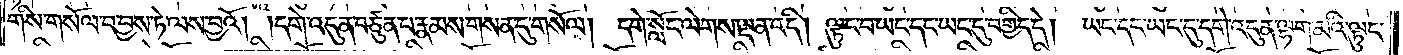གིས་གསོལ་བ་བྱས་ཏེ་ལས་བྱའོ། །དགེ་འདུན་བཙུན་པ་རྣམས་གསན་དུ་གསོལ། དགེ་སློང་ལེགས་ལྡན་འདི། ལྟུང་བ་ཡང་དང་ཡང་དུ་བགྱིད་དེ། ཡང་དང་ཡང་དུ་དགེ་འདུན་ལྷག་མའི་ལྟུང་
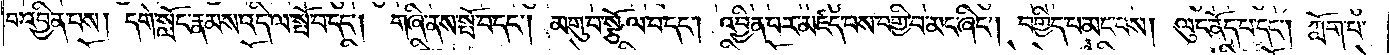པ་འབྱིན་པས། དགེ་སློང་རྣམས་འདི་ལ་སྤོ་བ་དང༌། གཞི་ནས་སྤོ་བ་དང༌། མགུ་བ་སྩོལ་བ་དང༌། འབྱིན་པར་མཛད་པས་བགྱི་བ་མང་ཞིང༌། བགྱིད་པ་མང་པས། ལུང་ནོད་པ་དང༌། ཀློག་པ་
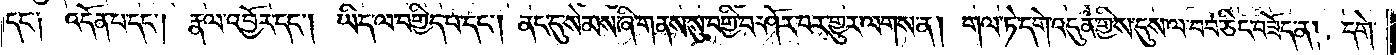དང་༑ འདོན་པ་དང༌། རྣལ་འབྱོར་དང༌། ཡིད་ལ་བགྱིད་པ་དང༌། ནང་དུ་སེམས་ཞི་གནས་སུ་བགྱི་བ་ཤོར་བར་གྱུར་ལགས་ན། གལ་ཏེ་དགེ་འདུན་གྱིས་དུས་ལ་བབ་ཅིང་བཟོད་ན། དགེ་
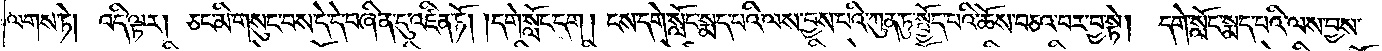ལགས་ཏེ། འདི་ལྟར། ཅང་མི་གསུང་བས་དེ་དེ་བཞིན་དུ་འཛིན་ཏོ། །དགེ་སློང་དག། ངས་དགེ་སློང་སྨད་པའི་ལས་བྱས་པའི་ཀུན་ཏུ་སྤྱོད་པའི་ཆོས་བཅའ་བར་བྱ་སྟེ། དགེ་སློང་སྨད་པའི་ལས་བྱས་
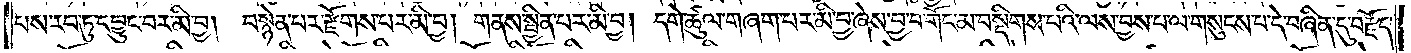པས་རབ་ཏུ་དབྱུང་བར་མི་བྱ། བསྙེན་པར་རྫོགས་པར་མི་བྱ། གནས་སྦྱིན་པར་མི་བྱ། དགེ་ཚུལ་གཞག་པར་མི་བྱ་ཞེས་བྱ་བ་གོང་མ་བསྡིགས་པའི་ལས་བྱས་པ་ལ་གསུངས་པ་དེ་བཞིན་དུ་བརྗོད་
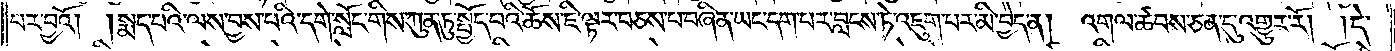པར་བྱའོ། །སྨད་པའི་ལས་བྱས་པའི་དགེ་སློང་གིས་ཀུན་ཏུ་སྤྱོད་པའི་ཆོས་ཇི་ལྟར་བཅས་པ་བཞིན་ཡང་དག་པར་བླངས་ཏེ་འཇུག་པར་མི་བྱེད་ན། འགལ་ཚབས་ཅན་དུ་འགྱུར་རོ། །དེ་
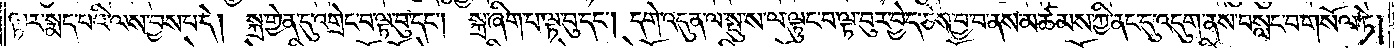ལྟར་སྨད་པའི་ལས་བྱས་པ་དེ། སྐྲ་གྱེན་དུ་འགྲེང་བ་ལྟ་བུ་དང༌། སྐྲ་ཞིག་པ་ལྟ་བུ་དང༌། དགེ་འདུན་ལ་སྤུ་ས་ལ་ལྟུང་བ་ལྟ་བུར་བྱེད་ཅེས་བྱ་བ་ནས་མཚམས་ཀྱི་ནང་དུ་འདུག་ནས་བསླང་བ་གསོལ་ཏེ།
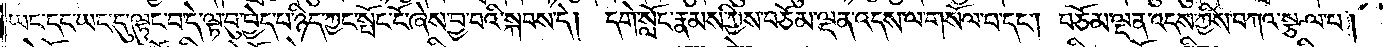ཡང་དང་ཡང་དུ་ལྟུང་བ་དེ་ལྟ་བུ་བྱེད་པ་ཉིད་ཀྱང་སྤོང་ངོ་ཞེས་བྱ་བའི་སྐབས་དེ། དགེ་སློང་རྣམས་ཀྱིས་བཅོམ་ལྡན་འདས་ལ་གསོལ་བ་དང༌། བཅོམ་ལྡན་འདས་ཀྱིས་བཀའ་སྩལ་པ།
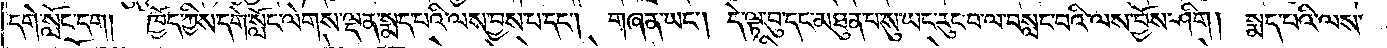དགེ་སློང་དག། ཁྱོད་ཀྱིས་དགེ་སློང་ལེགས་ལྡན་སྨད་པའི་ལས་བྱས་པ་དང༌། གཞན་ཡང༌། དེ་ལྟ་བུ་དང་མཐུན་པ་སུ་ཡང་རུང་བ་ལ་བསླང་བའི་ལས་བྱོས་ཤིག། སྨད་པའི་ལས་
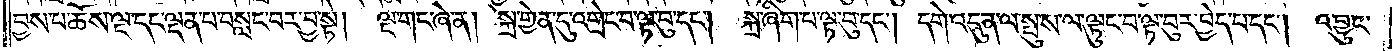བྱས་པ་ཆོས་ལྔ་དང་ལྡན་པ་བསླང་བར་བྱ་སྟེ། ལྔ་གང་ཞེ་ན། སྐྲ་གྱེན་དུ་འགྲེང་བ་ལྟ་བུ་དང༌། སྐྲ་ཞིག་པ་ལྟ་བུ་དང༌། དགེ་འདུན་ལ་སྤུས་ལ་ལྟུང་བ་ལྟ་བུར་བྱེད་པ་དང༌། འབྱུང་
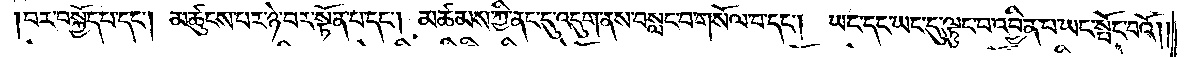བར་བསྐྱོད་པ་དང༌། མཚུངས་པར་ཉེ་བར་སྟོན་པ་དང༌། མཚམས་ཀྱི་ནང་དུ་འདུག་ནས་བསླང་བ་གསོལ་བ་དང༌། ཡང་དང་ཡང་དུ་ལྟུང་བ་འབྱིན་པ་ཡང་སྤོང་བའོ༎
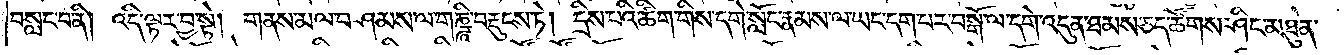བསླང་བ་ནི། འདི་ལྟར་བྱ་སྟེ། གནས་མལ་བཤམས་ལ་གཎྜཱི་བརྡུངས་ཏེ། དྲིས་པའི་ཚིག་གིས་དགེ་སློང་རྣམས་ལ་ཡང་དག་པར་བསྒོ་ལ་དགེ་འདུན་ཐམས་ཅད་ཚོགས་ཤིང་མཐུན་
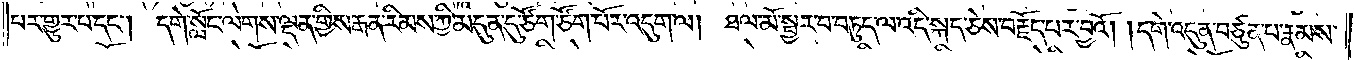པར་གྱུར་པ་དང༌། དགེ་སློང་ལེགས་ལྡན་གྱིས་རྒན་རིམས་ཀྱི་མདུན་དུ་ཙོག་ཙོག་པོར་འདུག་ལ། ཐལ་མོ་སྦྱར་བ་བཏུད་ལ་འདི་སྐད་ཅེས་བརྗོད་པར་བྱའོ། །དགེ་འདུན་བཙུན་པ་རྣམས་
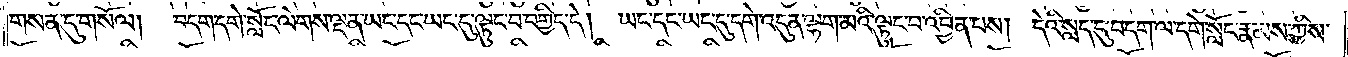གསན་དུ་གསོལ། བདག་དགེ་སློང་ལེགས་ལྡན་ཡང་དང་ཡང་དུ་ལྟུང་བ་བགྱིད་དེ། ཡང་དང་ཡང་དུ་དགེ་འདུན་ལྷག་མའི་ལྟུང་བ་འབྱིན་པས། དེའི་སླད་དུ་བདག་ལ་དགེ་སློང་རྣམས་ཀྱིས་
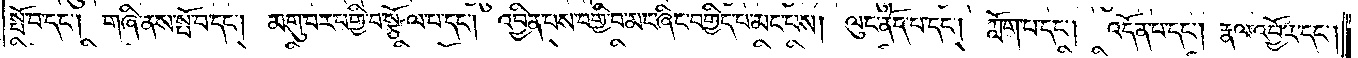སྤོ་བ་དང༌། གཞི་ནས་སྤོ་བ་དང༌། མགུ་བར་བགྱི་བ་སྩོལ་པ་དང༌། འབྱིན་པས་བགྱི་བ་མང་ཞིང་བགྱིད་པ་མང་པས། ལུང་ནོད་པ་དང༌། ཀློག་པ་དང༌། འདོན་པ་དང༌། རྣལ་འབྱོར་དང༌།
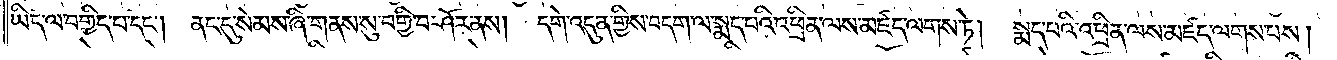ཡིད་ལ་བགྱིད་པ་དང༌། ནང་དུ་སེམས་ཞི་གནས་སུ་བགྱི་བ་ཤོར་ནས། དགེ་འདུན་གྱིས་བདག་ལ་སྨད་པའི་འཕྲིན་ལས་མཛད་ལགས་ཏེ། སྨད་པའི་འཕྲིན་ལས་མཛད་ལགས་པས།
